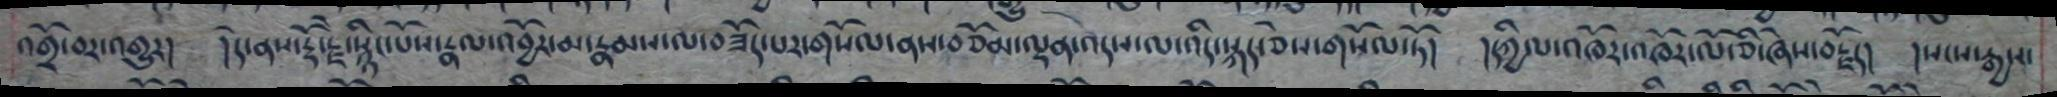འགྲོ་བར་འགྱུར། །དེ་ནས་རྡོ་རྗེ་སྙིང་པོས་རྣལ་འབྱོར་མ་རྣམས་ལ་བཟོད་པར་གསོལ་ནས་བཅོམ་ལྡན་འདས་ལ་འདི་སྐད་ཅེས་གསོལ་ཏོ། །དཀྱིལ་འཁོར་འཁོར་ལོ་ཅི་ཞེས་བརྗོད། །སངས་རྒྱས་
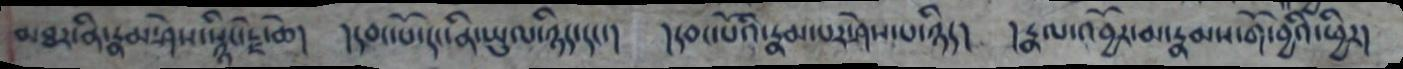མཐར་ནི་རྣམ་ཤེས་སྙིང་རྗེ་ཆེ། །དབང་པོ་དང་ནི་ཡུལ་ཉིད་དང་། །དབང་པོའི་རྣམ་པར་ཤེས་པ་ཉིད། །རྣལ་འབྱོར་མ་རྣམས་གོ་བྱའི་ཕྱིར།
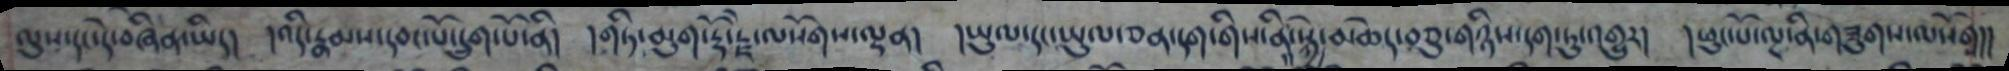ལུས་དང་དེ་བཞིན་ཡིད། །འདི་རྣམས་དབང་པོ་དྲུག་པོ་ནི། །གཏི་མུག་རྡོ་རྗེ་ལསོགས་ལྡན། །ཡུལ་དང་ཡུལ་ཅན་དག་གིས་ནི་སྐྱེ་མཆེད་བཅུ་གཉིས་དག་ཏུ་འགྱུར། །ཕུང་པོ་ལྔ་ནི་གཟུགས་ལསོག།།
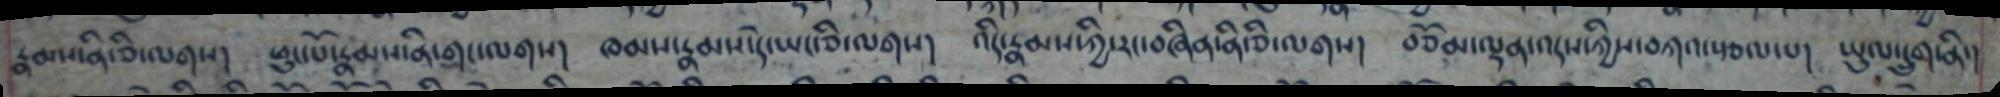རྣམས་ནི་ཅི་ལགས། ཕུང་པོ་རྣམས་ནི་གང་ལགས། ཁམས་རྣམས་དེ་ཡང་ཅི་ལགས། འདི་རྣམས་ཀྱི་རང་བཞིན་ནི་ཅི་ལགས། བཅོམ་ལྡན་འདས་ཀྱིས་བཀའ་སྩལ་པ། ཡུལ་དྲུག་ནི་
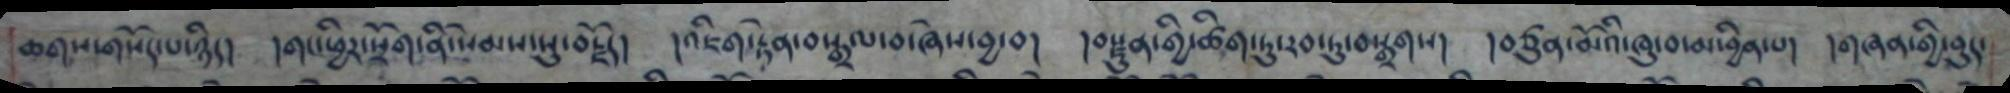ཆགས་གསོད་པ་ཉིད། །གང་ཕྱིར་སྲོག་ནི་སེམས་སུ་བརྗོད། །འཇིག་རྟེན་བསྒྲལ་བ་ཞེས་བྱ་བ། །བསྫུན་གྱི་ཚིག་ཏུ་རབ་ཏུ་བསྒྲགས། །བཙུན་མོའི་ཁུ་བ་མ་བྱིན་པ། །གཞན་གྱི་བུད་
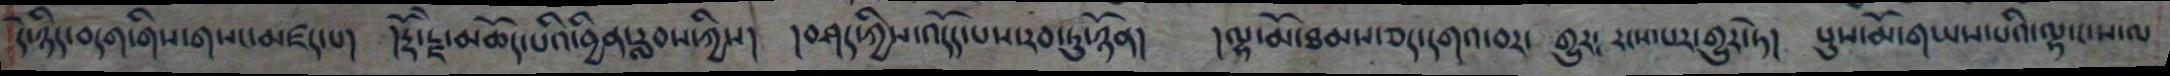དེ་ཉིད་བདག་གིས་གསང་མཛད་པ། །རྡོ་རྗེ་མཆོད་པའི་བྱིན་རླབས་ཀྱིས། །བཤད་ཀྱིས་འདོད་པས་རབ་ཏུ་ཉོན། །ལྷ་མོ་ཐམས་ཅད་དགའ་བར་ གྱུར་ རངས་པར་གྱུར་ཏེ། པུས་མོ་གཡས་པའི་ལྷ་ང་ས་ལ
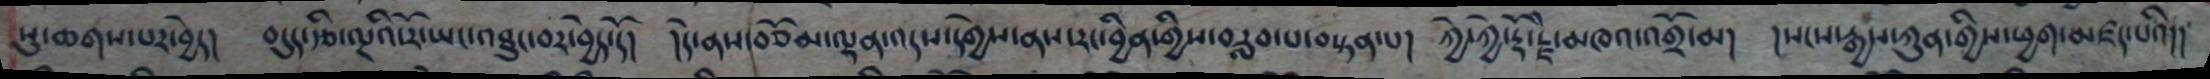སུ་ཆགས་པར་བྱེད། བདུད་རྩི་ལྔའི་རོ་ཡང་འཐུང་བར་བྱེད་དོ། །དེ་ནས་བཅོམ་ལྡན་འདས་དགྱེས་ནས་རང་བྱིན་གྱིས་བརླབ་པ་བསྟན་པ། ཀྱེ་ཀྱེ་རྡོ་རྗེ་མཁའ་འགྲོ་མ། །སངས་རྒྱས་ཀུན་གྱིས་ཕྱག་མཛད་པའི།།
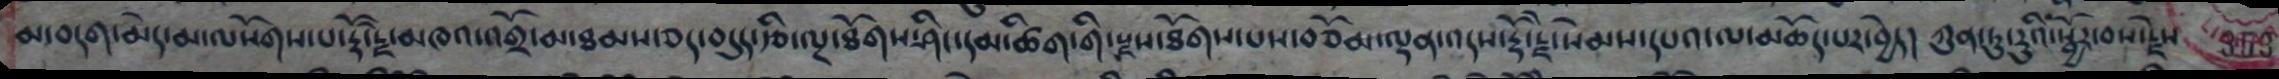མ་བདག་མེད་མ་ལསོགས་པ་རྡོ་རྗེ་མཁའ་འགྲོ་མ་ཐམས་ཅད་བདུད་རྩི་ལྔ་ཐོགས་ཤིང་དམ་ཚིག་གི་སཛས་ཐོགས་པས་བཅོམ་ལྡན་འདས་རྡོ་རྗེ་སེམས་དཔའ་ལ་མཆོད་པར་བྱེད། ཀུན་ཏུ་རུའི་སྦྱོར་བས་རྗེས
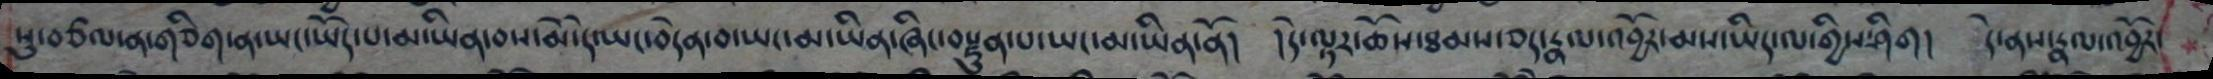སུ་བཙལ་ན་གཅིག་ན་ཡང་ཡོད་པ་མ་ཡིན་བས་མོ་དེ་ཡང་བདེན་བ་ཡང་མ་ཡིན་ཞིང་བསྡུན་པ་ཡང་མ་ཡིན་ནོ། །དེ་ལྟར་ཆོས་ཐམས་ཅད་རྣལ་འབྱོར་མས་ཡིད་ལ་གྱིས་ཤིག། དེ་ནས་རྣལ་འབྱོར་
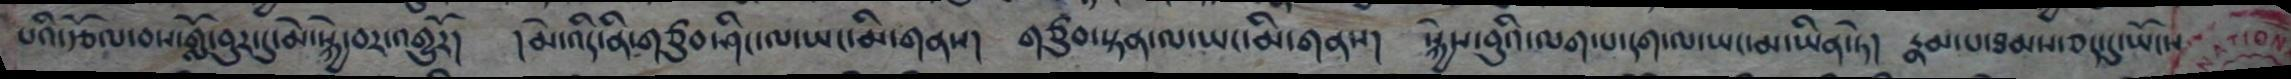པའི་རྩོལ་བས་གློ་བུར་དུ་མེ་སྐྱེ་བར་འགྱུརོ། །མེ་འདི་ནི་གཙུབ་ཤིང་ལ་ཡང་མི་གནས། གཙུབ་སྟན་ལ་ཡང་མི་གནས། སྐྱེས་བུའི་ལག་པ་དག་ལ་ཡང་མ་ཡིན་ཏེ། རྣམ་པ་ཐམས་ཅད་དུ་ཡོངས
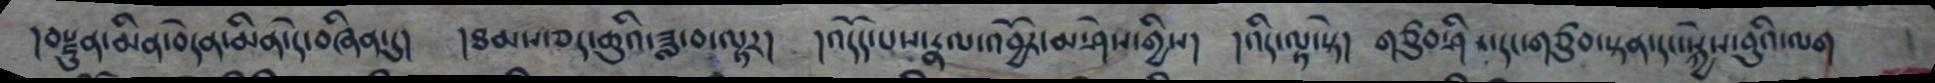།བསྫུན་མིན་བདེན་མིན་དེ་བཞིན་དུ། །ཐམས་ཅད་ཆུའི་ཟླ་བ་ལྟར། །འདོད་པས་རྣལ་འབྱོར་མ་ཤེས་གྱིས། །འདི་ལྟར་སྟེ། གཙུབ་ཤིང་དང་གཙུབ་སྟན་དང་སྐྱེས་བུའི་ལག
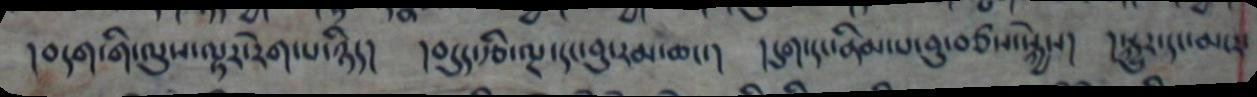།བདག་གི་ལུས་ལྟར་རེག་པ་ཉིད། །བདུད་རྩི་ལྔ་དང་བུ་རམ་ཆང་། །དུག་དང་ནིམ་པ་བུ་བཙས་སྐྱེས། །སྐྱུར་དང་མངར་
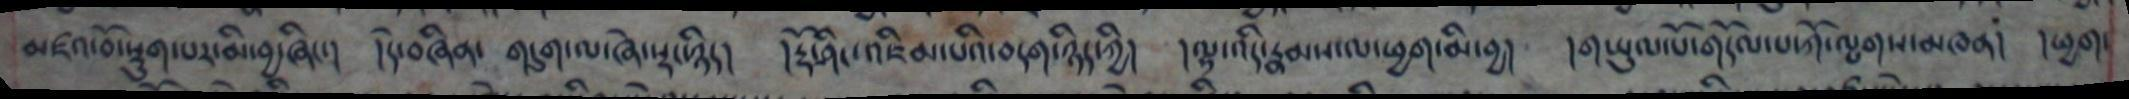མཛའ་བོ་སྡུག་པར་མི་བྱ་ཞིང་། །དེ་བཞིན་ གདུག་ལ་ཞེ་སྡང་ཉིད། །རྡོ་ཤིང་འཇིམ་པའི་བདག་ཉིད་ཀྱི། །ལྷ་འདི་རྣམས་ལ་ཕྱག་མི་བྱ། །གཡུལ་པོ་གདོལ་པ་ཀོ་ལྤགས་མཁན། །ཕྱག་
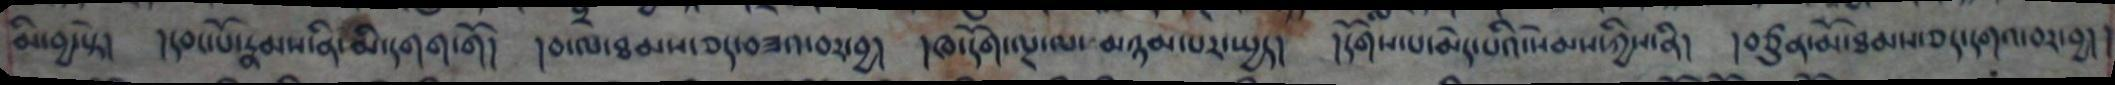མི་བྱ་སྟེ། །དབང་པོ་རྣམས་ནི་མི་དགག་གོ། །བ་ལ་ཐམས་ཅད་བཟའ་བར་བྱ། །ཁ་དོག་ལྔ་ལ་མཉམ་པར་སྤྱད། །དོགས་པ་མེད་པའི་སེམས་ཀྱིས་ནི། །བཙུན་མོ་ཐམས་ཅད་དགའ་བར་བྱ། །
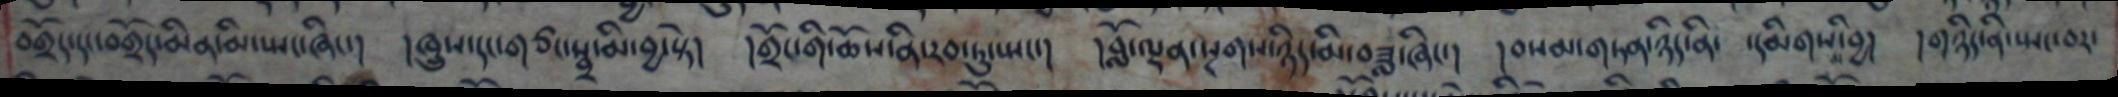བགྲོད་དང་བགྲོད་མིན་མི་ཡིན་ཞིང། ་ །ཁྲུས་དང་གཙང་སྦྲ་མི་བྱ་སྟེ།    །གྲོང་གི་ཆོས་ནི་རབ་ཏུ་ཡང་།    བློ་ལྡན་སྔགས་ཉིད་མི་བཟླ་ཞིང།   །བསམ་གཏན་ཉིད་ནི་ ་དམིགས་འབྱེད   ། གཉིད་ནི་ཡང་བར་
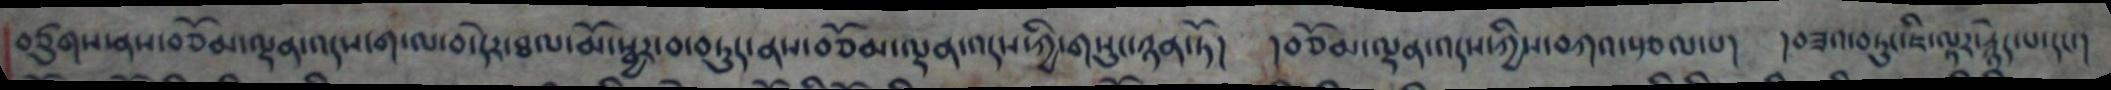བཙུགས་ནས་བཅོམ་ལྡན་འདས་ག་ལ་བ་དེར་ཐལ་མོ་སྦྱར་བ་བཏུད་ནས་བཅོམ་ལྡན་འདས་ཀྱི་གསུང་ཉན་ཏོ། །བཅོམ་ལྡན་འདས་ཀྱིས་བཀའ་སྩལ་པ། །བཟའ་བཏུང་ཇི་ལྟར་རྙེད་པ་དང་།
